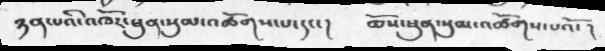ཉན་པའི་འཁོར་ཕུན་སུམ་འཚོགས་པ་དང་།  ཆོས་ཕུན་སུམ་འཚོགས་པའོ་།
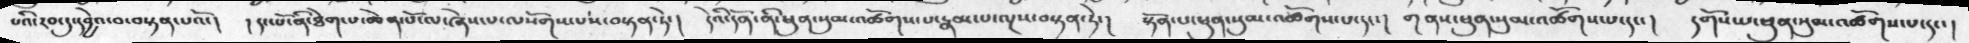པའི་རབ་དུ་དབྱེའ་བ་བསྟན་པའོ་།   ། དང་པོ་ནི་ཐེག་པ་ཆེན་པོ་ལ་ཞེས་པ་ལསོགས་པས་བསྟན་ཏེ་།   དེའི་དོན་ནི་ཕུན་སུམ་འཚོགས་པ་རྣམ་པ་ལྔས་བསྟན་ཏེ་།  སྟོན་པ་ཕུན་སུམ་འཚོགས་པ་དང་།  གནས་ཕུན་སུམ་འཚོགས་པ་དང་།  དགོས་པ་ཕུན་སུམ་འཚོགས་པ་དང་།
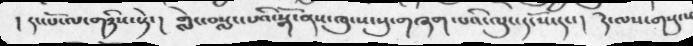།   དང་པོ་ལ་གཉིས་སྟེ་།   གླེང་བསླང་པའི་སྒོ་ནས་ཁུངས་སུ་གཞག་པའི་ལུང་དང་པོ་དང་།   དེ་ལས་གསུངས
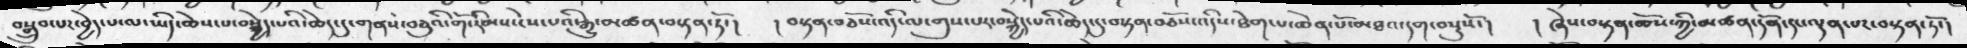བསྒྲུབ་པར་བྱེད་པ་ལ་ཡིད་ཆེས་པ་བསྐྱེད་པའི་ཆེད་དུ་གནས་བཅུའི་གོ་རིམས་ངེས་པའི་རྒྱུ་མཚན་བསྟན་ཏོ་།   ། བསྟན་བཅོས་འདི་ལ་གུས་པར་བསྐྱེད་པའི་ཆེད་དུ་བསྟན་བཅོས་འདིས་ཐེག་པ་ཆེན་པོ་མཐའ་དག་བསྡུསོ་།   ། ཞེས་བསྟན་བཅོས་ཀྱི་མཚན་དོན་དང་ལྡན་པར་བསྟན་ཏོ་།
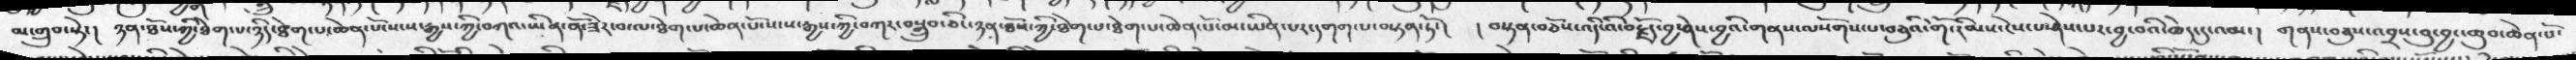མ་གྲུབ་སྟེ་།   ཉན་ཐོས་ཀྱི་ཐེག་པ་ཉིད་ཐེག་པ་ཆེན་པོ་སངས་རྒྱས་ཀྱི་བཀའ་ཡིན་ནོ་ཟེར་བ་ལ་ཐེག་པ་ཆེན་པོ་སངས་རྒྱས་ཀྱི་བཀར་བསྒྲུབ་ཅིང་ཉན་ཐོས་ཀྱི་ཐེག་པ་ཐེག་པ་ཆེན་པོ་མ་ཡིན་པར་དགག་པ་བསྟན་ཏོ་།  ། བསྟན་བཅོས་འདི་འི་བརྗོད་བྱ་ཤེས་བྱའི་གནས་ལསོགས་པ་བཅུའི་གོ་རིམས་ངེས་པ་ཤེས་པར་བྱ་བའི་ཆེད་དུ་འམ་།   གནས་བཅུས་འབྲས་བུ་བྱང་ཆུབ་ཆེན་པོ་
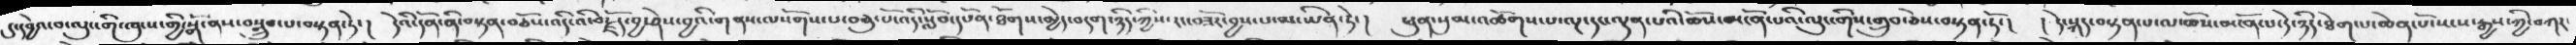དུ་དབྱེའ་བ་ལུང་གི་ཁུངས་གྱི་སྒོ་ནས་བསྒྲུབ་པ་བསྟན་ཏེ་།  དེའི་དོན་ནི་བསྟན་བཅོས་འདི་འི་བརྗོད་བྱ་ཤེས་བྱའི་གནས་ལསོགས་པ་བཅུ་པོ་འདི་སློབ་དཔོན་ཐོགས་མྱེད་བདག་ཉིད་ཀྱིས་རང་བཟོར་བྱས་པ་མ་ཡིན་ཏེ་།  ཕུན་སུམ་འཚོགས་པ་ལྔ་དང་ལྡན་པའི་ཆོས་མངོན་པའི་ལུང་གི་གྲུབ་ཅེས་བསྟན་ཏོ་།   ། དེ་སྐད་བསྟན་པ་ལ་ཆོས་མངོན་པ་དེ་ཉིད་ཐེག་པ་ཆེན་པོ་སངས་རྒྱས་ཀྱི་བཀར་
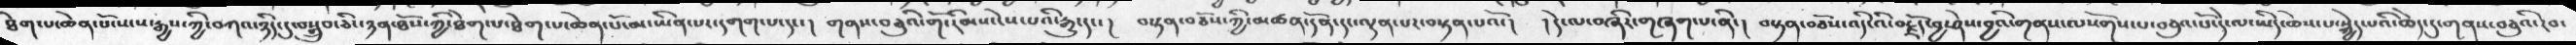ཐེག་པ་ཆེན་པོ་སངས་རྒྱས་ཀྱི་བཀའ་ཉིད་དུ་བསྒྲུབ་ཅིང་ཉན་ཐོས་ཀྱི་ཐེག་པ་ཐེག་པ་ཆེན་པོ་མ་ཡིན་པར་དགག་པ་དང་།   གནས་བཅུའི་གོ་རིམས་ངེས་པའི་རྒྱུ་དང་།  བསྟན་བཅོས་ཀྱི་མཚན་དོན་དང་ལྡན་པར་བསྟན་པའོ་།   ། དེ་ལ་བཞིར་གཞག་པ་ནི་།  བསྟན་བཅོས་འདི་འི་བརྗོད་བྱ་ཤེས་བྱའི་གནས་ལསོགས་པ་བཅུའ་པོ་དེ་ལ་ཡིད་ཆེས་པ་སྐྱེད་པའི་ཆེད་དུ་གནས་བཅུའི་རབ་
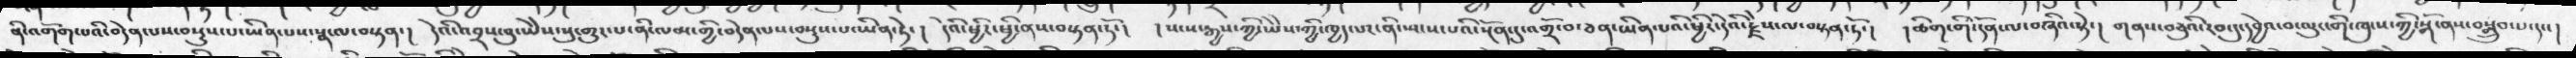ནི་འགོག་པའི་བདེན་པས་བསྡུས་པ་ཡིན་པས་སྣ་ལ་བསྟན་།  དེའི་འབྲས་བུ་ཡེེས་སུ་གྱུར་པ་ནི་ལམ་གྱི་བདེན་པས་བསྡུས་པ་ཡིན་ཏེ་།  །དེའི་ཕྱིར་ཕྱི་ནས་བསྟན་ཏོ་།   སངས་རྒྱས་ཀྱི་ཡེེས་ཀྱི་ཁྱད་པར་ནི་སྤངས་པའི་སྔོན་དུ་འགྲོ་བ་ཅན་ཡིན་པའི་ཕྱིར་དེའི་རྗེས་ལ་བསྟན་ཏོ་།  །ཚིག་གི་དོན་ལ་བཞིའ་སྟེ་།  གནས་བཅུའི་རབ་དུ་དབྱེའ་བ་ལུང་གི་ཁུངས་ཀྱི་སྒོ་ནས་བསྒྲུབས་པ་དང་།
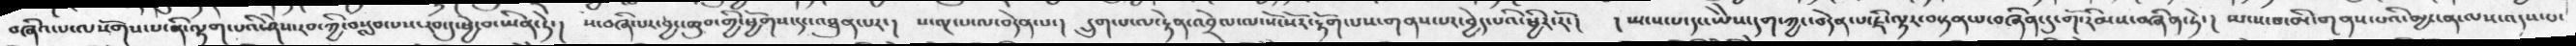བཞི་པ་ལསོགས་པ་ནི་ལྷག་པའི་ཤེས་རབ་ཀྱི་བསླབ་པས་རབ་དུ་ཕྱེ་བ་ཡིན་ཏེ་།  ས་བཞི་པར་བྱང་ཆུབ་ཀྱི་ཕྱོགས་སུ་འཐུན་པར་།  ས་ལྔ་པ་ལ་བདེན་པ་།  དྲུག་པ་ལ་རྟེན་འབྲེལ་ལ་སོ་སོར་རྟོག་པས་གནས་པར་བྱེད་པའི་ཕྱིར་རོ་།  ། སྤངས་པ་དང་ཡེེས་དག་ཀྱང་བདེན་པ་ཇི་ལྟར་བསྟན་པ་བཞིན་དུ་གོ་རིམས་བཞིན་ཏེ་།  སྤངས་པ་་མི་གནས་པའི་མྱ་ངན་ལས་འདས་པ་
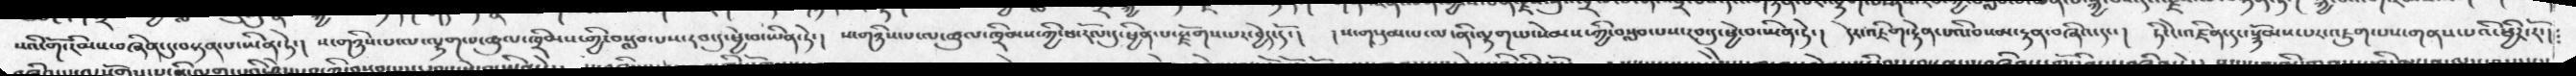པའི་གོ་རིམས་བཞིན་དུ་བསྟན་པ་ཡིན་ཏེ་།  ས་གཉིས་པ་ལ་ལྷག་པ་ཚུལ་ཁྲིམས་གྱི་བསླབ་པས་རབ་དུ་ཕྱེ་བ་ཡིན་ཏེ་།  ས་གཉིས་པ་ལ་ཚུལ་ཁྲིམས་ཀྱི་ཕ་རོལ་དུ་ཕྱིན་པ་རྫོགས་པར་བྱེད་དོ་།  ། ས་གསུམ་པ་ལ་ནི་ལྷག་པ་སེམས་ཀྱི་བསླབ་པས་རབ་དུ་ཕྱེ་བ་ཡིན་ཏེ་།   དེར་འཇིག་རྟེན་པའི་བསམ་རྟན་བཞིའ་དང་།  ཏིང་ངེ་འཛིན་དང་སྙོམས་པར་འཇུག་པས་གནས་པའི་ཕྱིར་རོ་།
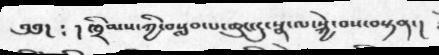༄༅།  ༴ ། ཁྲིམས་ཀྱི་བསླབ་པ་ཆུང་ངུ་སྣ་ལ་སྐྱེ་བས་བསྟན་།
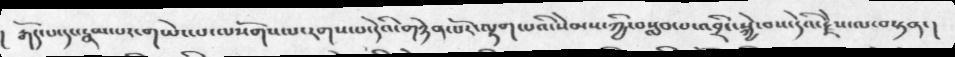།   རྒོད་པ་དང་རྣམ་པར་གཡེང་པ་ལསོགས་པ་རགས་པ་དེའི་གཉེན་པོར་ལྷག་པའི་སེམས་ཀྱི་བསླབ་པ་འབྲིང་སྐྱེ་བས་དེའི་རྗེས་ལ་བསྟན་།
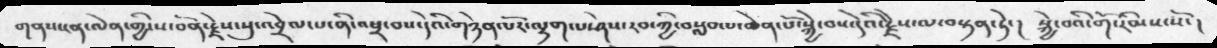གནས་ངན་ལེན་གྱི་ས་བོན་རྗེས་སུ་འབྲེལ་པ་ནི་འཕྲ་བས་དེའི་གཉེན་པོར་ལྷག་པ་ཤེས་རབ་ཀྱི་བསླབ་པ་ཆེན་པོ་སྐྱེ་བས་དེའི་རྗེས་ལ་བསྟན་ཏེ་།  སྐྱེ་བའི་གོ་རིམས་སོ་།
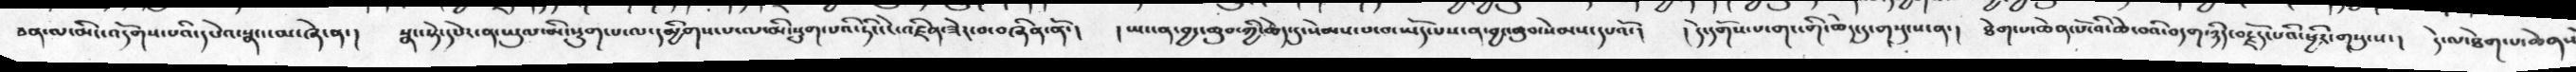ཅན་ལ་མིང་འདོགས་པའི་དཔེའ་སྣང་ངམ་ཞེ་ན་།  སྣང་སྟེ་དཔེར་ན་ཡུལ་མི་སྡུག་པ་ལ་དམྱིགས་པ་ལ་མི་སྡུག་པའི་ཏིང་ངེ་འཛིན་ཟེར་བ་བཞིན་ནོ་།  །ཡང་ན་བྱང་ཆུབ་ཀྱི་ཆེད་དུ་སེམས་པ་བ་ཡོད་པས་ན་བྱང་ཆུབ་སེམས་དཔའོ་།  །དེ་དགོས་པ་གང་གི་ཆེད་དུ་གསུངས་ན་།  ཐེག་པ་ཆེན་པོ་འི་ཆེ་བའི་བདག་ཉིད་བརྗོད་པའི་ཕྱིར་གསུངས་།  དེ་ལ་ཐེག་པ་ཆེན་
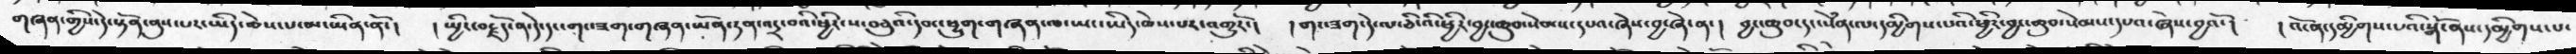གཞན་གྱིས་དེ་སྟོན་ནུས་པར་ཡིད་ཆེས་པ་མ་ཡིན་ནོ་།   ། སྤྱིར་བརྗོད་ན་དེ་དང་གང་ཟག་གཞན་ཡོན་ཏན་འདྲ་བའི་ཕྱིར་ས་བཅུའི་དབང་ཕྱུག་གཞན་ལ་ཡང་ཡིད་ཆེས་པར་འགྱུརོ་།    ། གང་ཟག་དེ་ལ་ཅི་འི་ཕྱིར་བྱང་ཆུབ་སེམས་དཔའ་ཞེས་བྱ་ཞེ་ན་།  བྱང་ཆུབ་དང་སེཾན་ལ་དམྱིགས་པའི་ཕྱིར་བྱང་ཆུབ་སེམས་དཔའ་ཞེས་བྱའོ་།  ། འོ་ན་དམྱིགས་པའི་སྒོ་ནས་དམྱིགས་པ་
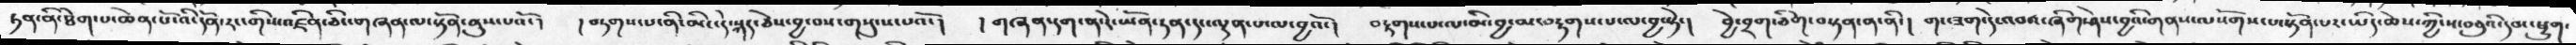ཏན་ནི་ཐེག་པ་ཆེན་པོ་འི་དོན་རང་གིས་འཛིན་ཅིང་གཞན་ལ་སྟོན་ནུས་པའོ་།   ། བཏགས་པ་ནི་མིང་དེ་སྐད་ཅེས་བྱ་བས་གསུངས་པའོ་།   ། གཞན་དག་ན་རེ་ཡོན་ཏན་དང་ལྡན་པ་ལ་བྱའོ་།  བརྟགས་པ་ལ་མི་བྱ་མ་བརྟགས་པ་ལ་བྱ་སྟེ་།  བྱེ་བྲག་ཅིག་བསྟན་ན་ནི་།   གང་ཟག་དེ་འབའ་ཞིག་ཤེས་བྱའི་གནས་ལསོགས་པ་སྟོན་པར་ཡིད་ཆེས་ཀྱི་ས་བཅུའི་དབང་ཕྱུག་
